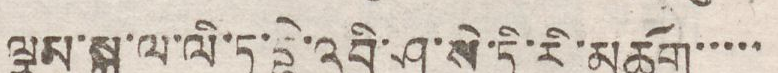ལྕམ་སྐུ་ལ་ལི་ཏ་དྷེ་འབི་ཤ་སེ་ཏི་རི་མཆོག་་་་་
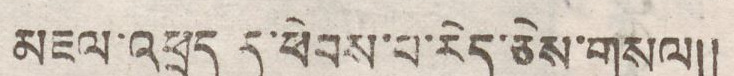མཇལ་འཕྲད དུ་ཕེབས་པ་རེད་ཅེས་གསལ།།
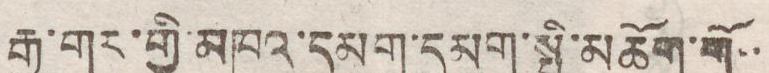རྒྱ་གར་གྱི་མཁའ་དམག་དམག་སྤྱི་མཆོག་གོ་་
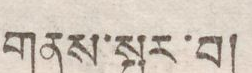གནས་སྤར་བ།
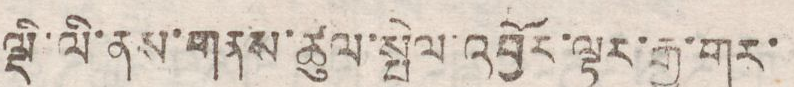ལྡི་ལི་ནས་གནས་ཚུལ་སྤེལ་འབྱོར་ལྟར་རྒྱ་གར་
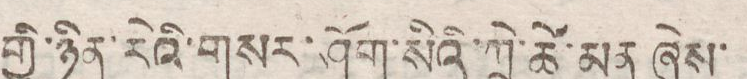གྱི་ཉིན་རེའི་གསར་ཤོག་སིའི་ཀྲེ་ཚེ་མན ཞེས་
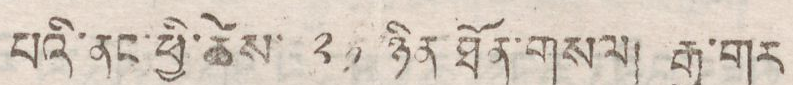པའི་ནང་ཕྱི་ཚེས་ ༢༡ ཉིན་ཐོན་གསལ། རྒྱ་གར
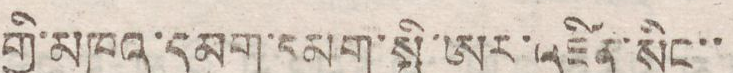གྱི་མཁའ་དམག་དམག་སྤྱི་ཨར་འཛིན་སིང་་
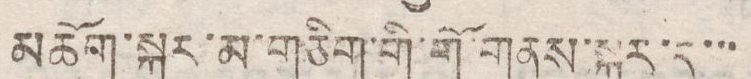མཆོག་སྐར་མ་གཅིག་གི་གནས་སྐྱར་དུ་་་
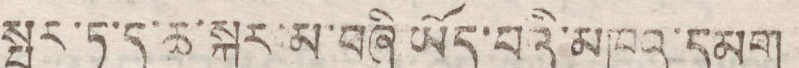སྤར་ཏ་ད་ཆ་སྐར་མ་བཞི ཡོད་པའི་མཁའ་དམག
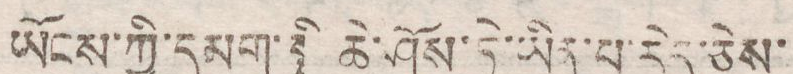ཡོངས་ཀྱི་དམག་སྤྱི་ཆེ་ཤོས་ཏེ་ཡིན་པ་རེད་ཅེས་
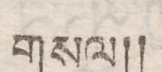གསལ།།
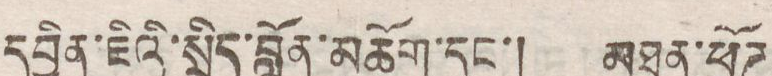དབྱིན་ཇིའི་སྲིད་བློན་མཆོག་དང་། མཐུན་ཕྱོཌ
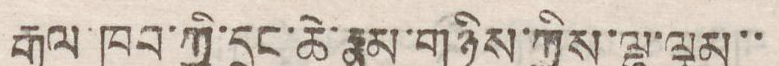རྒྱལ ཁབ་ཀྱི་དྲུང་ཆེ་རྣམ་གཉིས་ཀྱིས་ལྷ་ལྕམ་་
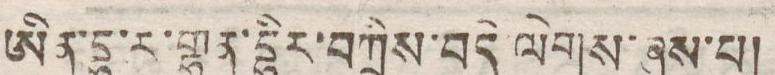ཨིན་དྷ་ར་གྷན་དྷིར་བཀྲིས་བདེ ལེགས་ཞུས་པ།
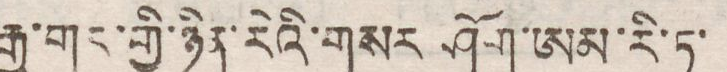རྒྱ་གར་གྱི་ཉིན་རེའི་གསར ཤོག་ཨམ་རི་ཏ་
